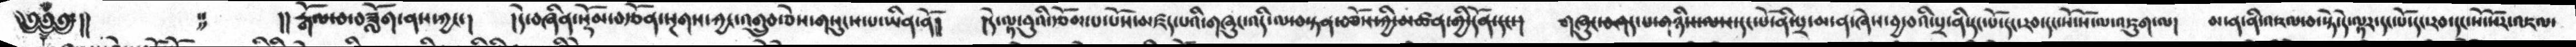༄༅༅།། ༴  །།རྒོལ་བ་བཟློག་ནས་ཀྱང་།  །དེ་བཞིན་སྡོམ་བརྩོན་སྔགས་ཀྱང་འགྲུབ་ཅེས་གསུངས་པ་ཡིན་ནོ།  །དེ་ལྟ་བུའི་རྩོམ་པ་པོས་མཛད་པའི་གཞུང་འདི་ལ་བསྟན་བཅོས་ཀྱི་མཚན་གྱི་དོན་དང་།  གཞུང་བཤད་པ་གཉིས་ལས་དང་པོ་ནི་པྲ་མ་ན་ཞེས་བྱ་བའི་པྲ་ནི་དང་པོ་དང་རབ་དང་སོ་སོ་ལ་འཇུག་ལ།   མ་ན་ནི་འཇལ་བ་སྟེ་དེ་ལྟར་དང་པོ་དང་རབ་དང་སོ་སོར་འཇལ་
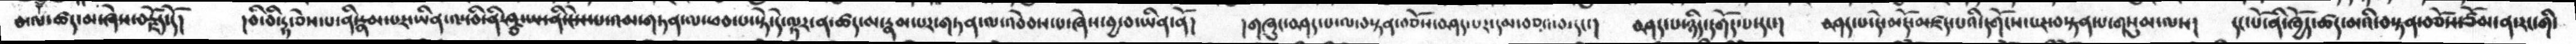བ་ལ་ཚད་མ་ཞེས་བརྗོད་དོ།  །བི་བི་དྷ་ཅེས་པ་ནི་རྣམ་པར་ཡིན་ལ་བི་ནི་ཤྩ་ཡ་ནི་ངེས་པ་འམ་གཏན་ལ་ཕབ་པ་སྟེ་དེ་ལྟར་ན་ཚད་མ་རྣམ་པར་གཏན་ལ་འབེབས་པ་ཞེས་བྱ་བ་ཡིན་ནོ།   །གཞུང་བཤད་པ་ལ་བསྟན་བཅོས་བཤད་པར་དམ་བཅའ་བ་དང་།   བཤད་པ་ཉིད་དགོད་པ་དང་།   བཤད་པ་དེ་མདོ་མཛད་པའི་དགོངས་པར་བསྟན་པ་གསུམ་ལས།  དང་པོ་ནི་ཁྱོད་ཚད་མའི་བསྟན་བཅོས་ཙོམ་ན་རང་གི་
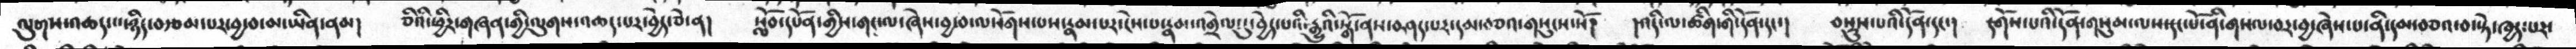ལུགས་འཆད་པ་ཉིད་བརྩམ་པར་བྱ་བ་མ་ཡིན་ནམ།  ཅིའི་ཕྱིར་གཞན་གྱི་ལུགས་འཆད་པར་བྱེད་ཅེ་ན།  སློབ་དཔོན་གྱིས་གང་ལ་ཞེས་བྱ་བ་ལསོགས་པས་རྣམ་པར་ངེས་པ་རྣམ་འགྲེལ་དུ་བྱེད་པའི་རྒྱུའི་སྒོ་ནས་བཤད་པར་དམ་བཅའ་གསུངས་སོ།  །འདི་ལ་ཚིག་གི་དོན་དང་།  བསྡུས་པའི་དོན་དང་།  དགོས་པའི་དོན་གསུམ་ལས་དང་པོ་ནི་གསལ་བར་བྱ་ཞེས་པ་ནི་དམ་བཅའ་བ་སྟེ་ཁྱད་པར་
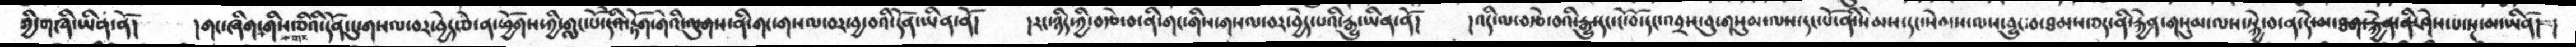གྱི་གཞི་ཡིན་ནོ།  །གང་ཞིག་གང་གིས་ཅིའི་དོན་དུ་གསལ་བར་བྱེད་ཅེ་ན་ཕྱོགས་ཀྱི་གླང་པོ་དེའི་རྟོག་གེའི་ལུགས་ནི་གང་གསལ་བར་བྱ་བའི་དོན་ཡིན་ནོ།   །རང་ཉིད་ཀྱི་བརྩེ་བ་ནི་གང་གིས་གསལ་བར་བྱེད་པའི་རྒུ་ཡིན་ནོ།  །འདི་ལ་བརྩེ་བའི་རྒྱུ་དང་ངོ་བོ་དང་འབྲས་བུ་གསུམ་ལས་དང་པོ་ནི་སེམས་དང་སེམས་ལས་བྱུང་བ་ཐམས་ཅད་ནི་རྐྱེན་གསུམ་ལས་སྐྱེ་བ་ན་དེ་མ་ཐག་རྐྱེན་ནི་ཤེས་པ་སྔ་མ་ཡིནོ། །
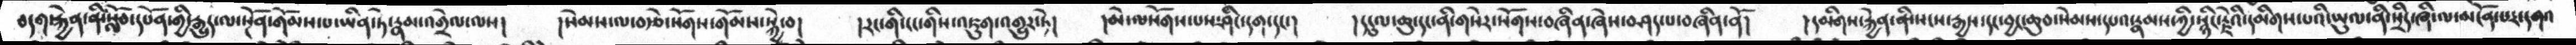བདག་རྐྱེན་ནི་སློབ་དཔོན་གྱི་རྒྱུད་ལ་སྔོན་གོམས་པ་ཡིན་ཏེ་རྣམ་འགྲེལ་ལས།   །སེམས་ལ་བརྩེ་སོགས་གོམས་སྐྱེ་བ།   །རང་གི་ངང་གིས་འཇུག་འགྱུར་ཏེ།   །མེ་ལསོགས་པས་ཤིང་དག་དང་།   །དངུལ་ཆུ་དང་ནི་གསེར་སོགས་བཞིན་ཞེས་བཤད་པ་བཞིན་ནོ།   །དམིགས་རྐྱེན་ནི་སངས་རྒྱས་དང་བྱང་ཆུབ་སེམས་དཔའ་རྣམས་ཀྱི་སྙིང་རྗེའི་དམིགས་པའི་ཡུལ་ནི་སྲིད་ཞི་ལ་མངོན་པར་དགའ
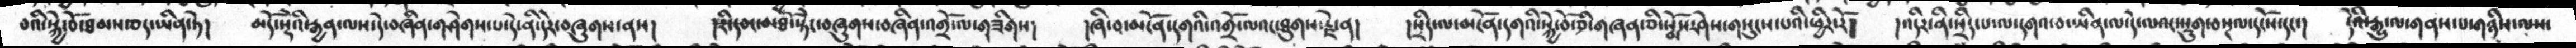བའི་སྐྱེ་བོ་ཐམས་ཅད་ཡིན་ཏེ།   མདོ་སྡེའི་རྒྱན་ལས་དེ་བཞིན་གཤེགས་པ་དེ་ནི་དེར་བཞུགས་ནས།  །རི་དབང་མཐོ་སྟེང་བཞུགས་བཞིན་འགྲོ་་ལ་གཟིགས།  །ཞི་བ་མངོན་དགའི་འགྲོ་ལའང་ཐུགས་རྗེ་ན།   །སྲིད་ལ་མངོན་དགའི་སྐྱེ་བོ་ཅི་གཞན་ཅི་སྨོས་ཤེས་གསུངས་པའི་ཕྱིར་རོ།   །འདིར་ནི་སྲིད་པ་ལ་དགའ་བ་ཡིན་ལ་དེ་ལའང་སྡུག་བསྔལ་དངོས་དང་།  དེའི་རྒྱུ་ལ་གནས་པ་གཉིས་ལས་
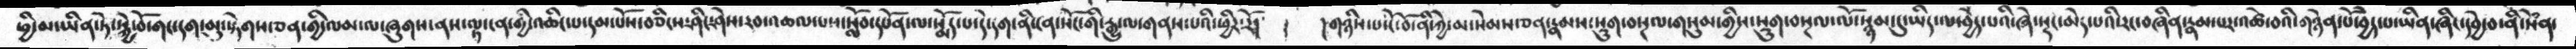ཕྱི་མ་ཡིན་ཏེ་སྐྱེ་བོ་གང་དག་མུ་སྟེགས་ཅན་གྱི་ལམ་ལ་ཞུགས་ནས་ལྟ་ངན་གྱི་འཆིང་པ་དམ་པོས་བཅིངས་ཤིང་ཤེས་རབ་འཆལ་པས་སློབ་དཔོན་ལ་སྨོད་པ་དེ་དག་ནི་ངན་སོང་གི་རྒྱུ་ལ་གནས་པའི་ཕྱིར་རོ།  ༈  །གཉིས་པའི་ངོ་བོ་ནི་ཀྱེ་མ་སེམས་ཅན་རྣམས་སྡུག་བསྔལ་གསུམ་གྱིས་སྡུག་བསྔལ་ལོ་སྙམ་དུ་ཡིད་ལ་བྱེད་པའི་ཞེ་སྡང་མེད་པའི་རང་བཞིན་རྣམ་པར་འཚེ་བའི་གཉེན་པོ་བྱེད་པ་ཡིན་ཞིང་དབྱེ་བ་ནི་སེཾན་
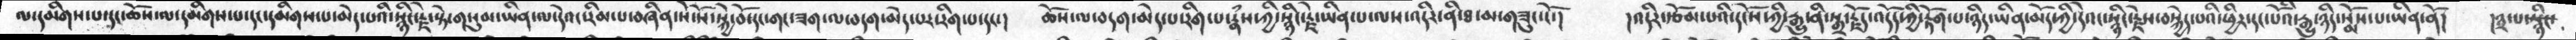ལ་དམིགས་པ་དང་ཆོས་ལ་དམིགས་པ་དང་དམིགས་པ་མེད་པའི་སྙིང་རྗེ་སྟེ་གསུམ་ཡིན་ལ་དེའི་རིམ་པ་བཞིན་སོ་སོ་སྐྱེ་བོ་དང་གང་ཟག་ལ་བདག་མེད་པར་རིག་པ་དང་།  ཆོས་ལ་བདག་མེད་པ་རིག་པ་རྣཾས་ཀྱི་སྙིང་རྗེ་ཡིན་པ་ལས་འདིར་ནི་ཐ་མ་གཟུང་ངོ་།  །འདིར་རྩོམ་པའི་དོངས་ཀྱི་རྒྱུད་ནི་སྒྲ་རྗོད་འདོད་ཀྱི་རྟོག་པ་ཉིད་ཡིན་མོད་ཀྱི་དེའང་སྙིང་རྗེས་བསྐྱེད་པའི་ཕྱིར་དང་པོའིརྒྱུ་ཉིད་སྨོས་པ་ཡིན་ནོ།  །༣་པ་སྙིང་
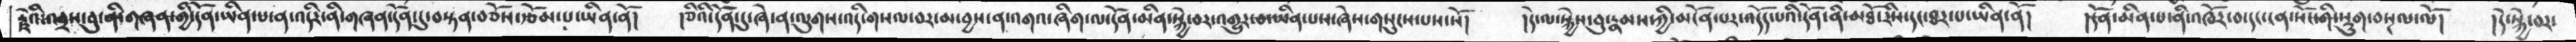རྵེའི་འབྲས་བུ་ནི་གཞན་གྱི་དོན་ཡིན་པ་ན་འདིར་ནི་གཞན་དོན་དུ་བསྟན་བཅོས་རྩོམ་པ་ཡིན་ནོ། །ཅིའི་དོན་དུ་ཞེ་ན་ལུགས་འདི་གསལ་བར་མ་བྱས་ན་འགའ་ཞིག་ལ་དོན་མིན་སྐྱེ་བར་འགྱུར་བ་ཡིན་པས་ཞེས་གསུངས་པས་སོ།  །དེ་ལ་སྐྱེས་བུ་རྣམས་ཀྱི་མངོན་པར་འདོད་པའི་དོན་ནི་མཐོ་རིས་དང་ཐར་པ་ཡིན་ནོ།  །དོན་མིན་པ་ནི་འཁོར་བ་དང་ངན་སོང་གི་སྡུག་བསྔལ་ལོ།  །དེ་སྐྱེ་བར་
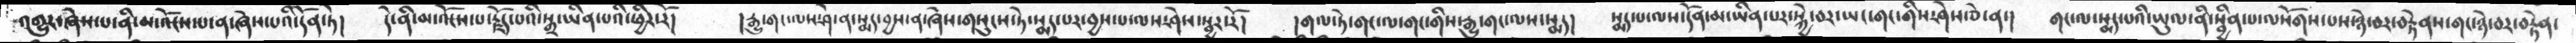འགྱུར་ཞེས་པ་ནི་མ་འོངས་པ་ན་ཞེས་པའི་དོན་ཏེ།   དེ་ནི་མ་འོངས་པ་རྗོད་པའི་སྒྲ་ཡིན་པའི་ཕྱིར་རོ།   །རྒྱུ་གང་ལས་ཤེ་ན་སྨད་བྱས་ན་ཞེས་གསུངས་ཏེ་སྨད་པར་བྱས་པ་ལས་ཤེས་སྦྱར་རོ།  །གལ་ཏེ་གང་ལ་གང་གིས་རྒྱུ་གང་ལས་སྨད།  སྨད་པ་ལས་དོན་མ་ཡིན་པར་སྐྱེ་བར་ཡང་གང་གིས་ཤེས་ཅེ་ན་།      གང་ལ་སྨད་པའི་ཡུལ་ནི་སྦྱིན་པ་ལསོགས་པས་ཉེ་བར་བརྟེནས་གང་ཉེ་བར་བརྟེན་
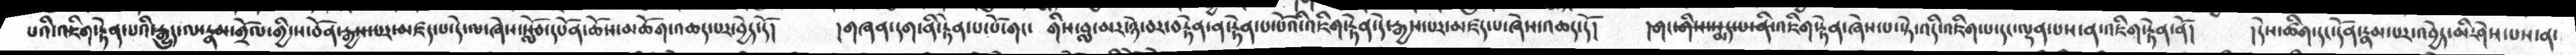པའི་འཇིག་རྟེན་པའི་རྒྱུད་ལ་རྣམ་གྲོལ་གྱི་ས་བོན་རྒྱས་པར་མཛད་པ་དེ་ལ་ཞེས་སློབ་དཔོན་ཆོས་མཆོག་འཆད་པར་བྱེད་དོ།    །གཞན་དག་ནི་རྟེན་པ་པོ་གང་  གིས་བླ་མར་ཉེ་བར་བརྟེན་ན་རྟེན་པ་པོའི་འཇིག་རྟེན་དེ་རྒྱས་པར་མཛད་པ་ཞེས་འཆད་དོ།    །གང་གིས་སྨད་པ་ནི་འཇིག་རྟེན་ཞེས་པ་སྟེ་འདི་འཇིག་པ་དང་ལྡན་པས་ན་འཇིག་རྟེན་ནོ།    །དེས་ཚིག་དང་དོན་རྣམ་པ༷ར་འབྱེད་མི་ཤིས་པས་ན་
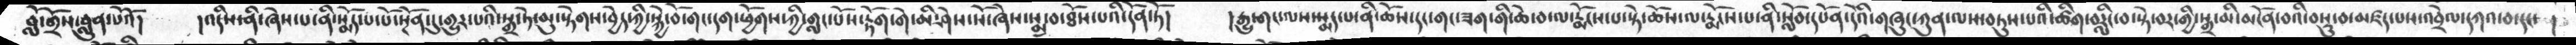བློ་གྲོས་བླུན་པོའོ།   །འདིས་ནི་ཞེས་པ་ནི་སྨོད་པ་པོ་སྔོན་དུ་གྱུར་པའི་སྒྲ་ཏེ་མུ་སྟེགས་བྱེད་ཀྱི་སྐྱེ་བ་གང་དག་ཕྱོགས་ཀྱི་གླང་པོས་རྟོག་གེ་མི་ཤེས་སོ་ཞེས་སྨྲ་བ་ཐོས་པའི་དོན་ཏོ།  །རྒྱུ་གང་ལས་སྨད་པ་ནི་ཆོས་དང་གང་ཟག་གི་ཆེ་བ་ལ་རྨོངས་པ་སྟེ་ཆོས་ལ་རྨོངས་པ་ནི་སློབ་དཔོན་དེའི་གཞུང་ཀུན་ལས་བཏུས་པའི་ཚིག་བརླིང་བ་སྟེ་བར་གྱི་སྒྲ་མི་མངོན་བའི་བསྡུ་བ་མཛདཔས་འབྲེལ་དཀའ་བ་དང་ །
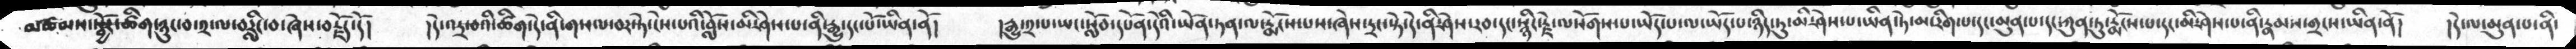མཚམས་སྦྱོར་ཚིག་ཉུང་བ་༢་ལས་བརླིང་བ་ཞེས་བརྗོད་དོ།  །དེ་འདྲ་བའི་ཚིག་དེ་ནི་གསལ་བར་ཏེ་ངེས་པའི་བློས་མི་ཤེས་པ་ནི་རྒྱུ་དང་པོ་ཡིན་ནོ།  །རྒྱུ་༢་པ་ཡང་སློབ་དཔོན་དེའི་ཡོན་ཏན་ལ་རྨོངས་པས་ཞེས་དྲང་སྟེ་དེ་ནི་ཤེས་རབ་དང་སྙིང་རྗེ་ལསོགས་པ་ཡོད་པ་ལ་ཡོད་པ་ཉིད་ཏུ་མི་ཤེས་པ་ཡིན་ཏེ་མ་རིག་པ་དང་མུན་པ་དང་ཀུན་ཏུ་རྨོངས་པ་དང་མི་ཤེས་པ་ནི་རྣམས་གྲངས་ཡིན་ནོ།  །དེ་ལ་མུན་པ་ནི་
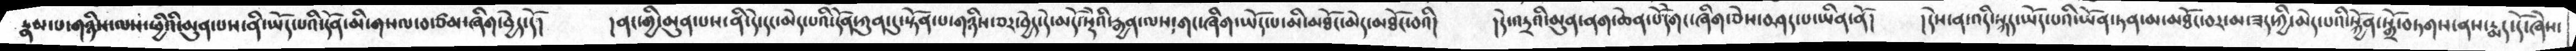རྣམ་པ་གཉིས་ལས་ཕྱིའི་མུན་པས་ནི་ཡོད་པའི་དོན་མི་གསལ་བ་ཙམ་ཞིག་བྱེད་དོ།  །ནང་གྱི་མུན་པས་ནི་དེ་དང་མེད་པའི་དོན་ཀུན་དུ་སྟོན་པ་གཉིས་བར་བྱེད་དེ་མདོ་སྡེའི་རྒྱན་ལས་གང་་ཞིག་ཡོད་པ་མི་མཐོང་མེད་མཐོང་བའི།  །དེ་འདྲའི་མུན་ནག་ཆེན་པོདེགང་ཞིག་ཅེས་བཤད་པ་ཡིན་ནོ།  །དེས་ན་འདི་སྐད་ཡོད་པའི་ཡོན་ཏན་མ་མཐོང་བར་མ་ཟད་ཀྱི་མེད་པའི་སྐྱོན་སྒྲོ་བཏགས་ནས་རྨད་དོ་ཞེས་
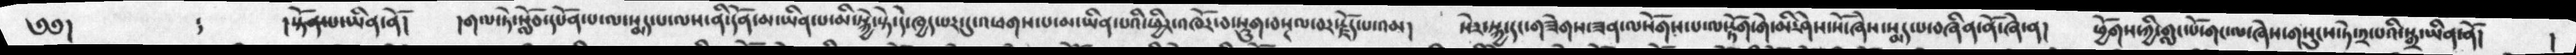༄༅།    ༴   །སྟོན་པ་ཡིན་ནོ།  །གལ་ཏེ་སློབ་དཔོན་པ་ལ་སྨད་པ་ལས་ནི་དོན་མ་ཡིན་པ་མི་སྐྱེ་སྟེ་དེ་ཁྱད་པར་དུ་འཕགས་པ་མ་ཡིན་པའི་ཕྱིར་འཁོར་བ་སྡུག་བསྔལ་བར་བརྗོད་པ་འམ།  སེར་སྐྱ་དང་གཟེགས་ཟན་ལསོགས་པ་ལ་རྟོག་གེ་མི་ཤེས་སོ་ཞེས་སྨད་པ་བཞིན་ནོ་ཞེ་ན།  ཕྱོགས་ཀྱི་གླང་པོ་གང་ལ་ཞེས་གསུངས་ཏེ་༢་པའི་སྒྲ་ཡིན་ནོ།   །
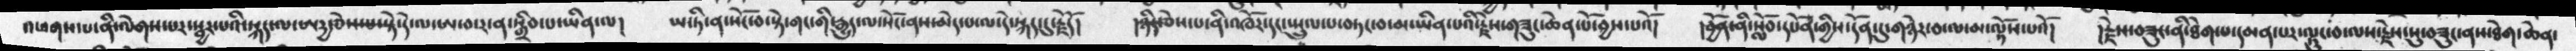འཕགས་པ་ནི་ལེགས་པར་སྦྱར་པའི་སྐད་ལ་ཨརྱ་ཅེས་པ་སྟེ་དེ་ལ་ཨ་བ་ར་ན་སྒྲིབ་པ་ཡིན་ལ།  ཡ་ཏི་ན་སོང་བ་སྟེ་གང་གི་རྒྱུད་ལ་སོང་ནས་མེད་པ་ལ་དེ་སྐད་དུ་རྗོདོ།  །ཉིད་ཅེས་པ་ནི་འཁོར་དང་སྤྲུལ་པ་བཏང་བ་མ་ཡིན་པའི་རྗེས་གཟུང་ཆེན་པོ་བྱས་པའོ།  །བྱོན་ནི་སློབ་དཔོན་གྱིས་དོན་དུ་གཉེར་བ་ལ་མ་ལྟོས་པའོ།  །རྗེས་བཟུང་ནི་ཐེག་པ་དམན་པར་ལྟུང་བ་ལས་རྗེས་སུ་བཟུང་ནས་ཐེག་ཆེན་
